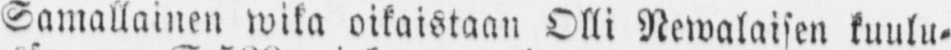Samallainen wika oikaistaan Olli Newalaisen kuulu-
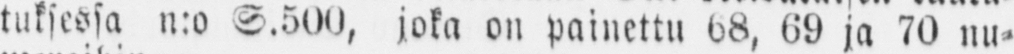tuksessa n:o S.500, joka on painettu 68, 69 ja 70 nu-
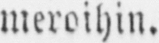meroihin.
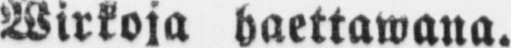Wirkoja haettawana.
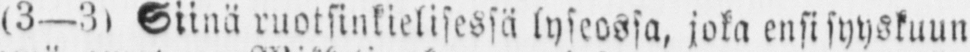(3-3) Siinä ruotsinkielisessä lyseossa, joka ensi syyskuun
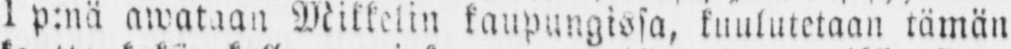1 p:nä awataan Mikkelin kaupungissa, kuulutetaan tämän
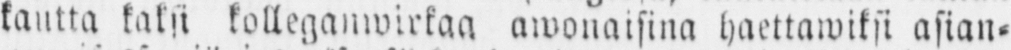kautta kaksi kolleganwirkaa awonaisina haettawiksi asian-
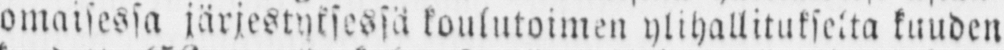omaisessa järjestyksessä koulutoimen ylihallitukselta kuuden
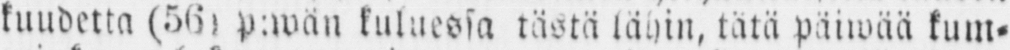kuudetta (56) p:wän kuluessa tästä lähin, tätä päiwää kum-
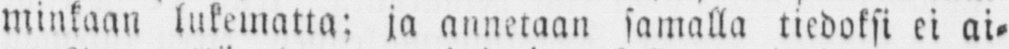minkaan lukematta; ja annetaan samalla tiedoksi ei ai-
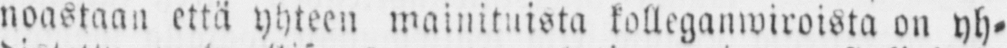noastaan että yhteen mainituista kolleganwiroista on yh-
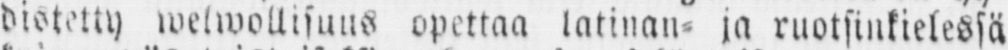distetty welwollisuus opettaa latinan- ja ruotsinkielessä
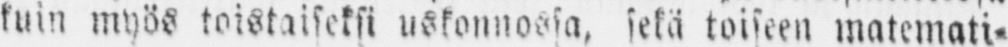kuin myös toistaiseksi uskonnossa, sekä toiseen matemati-
